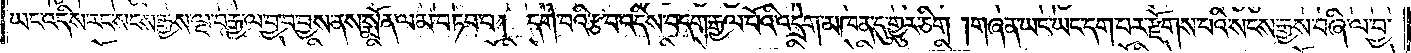ཡང་འདིས་རང་སངས་རྒྱས་ལྔ་བརྒྱ་ལ་བྱ་བ་བྱས་ནས་སྨོན་ལམ་བཏབ་པ། དགེ་བའི་རྩ་བ་འདིས་བདག་རྒྱལ་པོའི་འདྲེག་མཁན་དུ་གྱུར་ཅིག །གཞན་ཡང་ཡང་དག་པར་རྫོགས་པའི་སངས་རྒྱས་བཞི་ལ་བྱ་
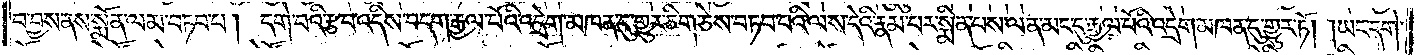བ་བྱས་ནས་སྨོན་ལམ་བཏབ་པ། དགེ་བའི་རྩ་བ་འདིས་བདག་རྒྱལ་པོའི་འདྲེག་མཁན་དུ་གྱུར་ཅིག་ཅེས་བཏབ་པའི་ལས་དེའི་རྣམ་པར་སྨིན་པས་ལན་མང་དུ་རྒྱལ་པོའི་འདྲེག་མཁན་དུ་གྱུར་ཏོ། །ཡང་དགེ་
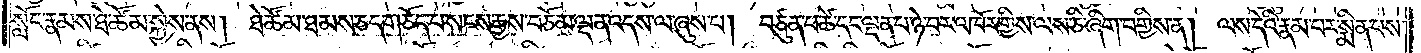སློང་རྣམས་ཐེ་ཚོམ་སྐྱེས་ནས། ཐེ་ཚོམ་ཐམས་ཅད་གཅོད་པ་སངས་རྒྱས་བཅོམ་ལྡན་འདས་ལ་ཞུས་པ། བཙུན་པ་ཚེ་དང་ལྡན་པ་ཉེ་བར་འཁོར་གྱིས་ལས་ཅི་ཞིག་བགྱིས་ན། ལས་དེའི་རྣམ་པར་སྨིན་པས་
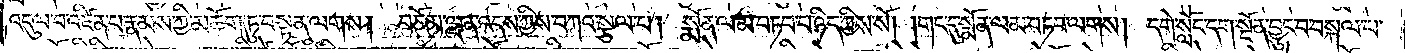འདུལ་བ་འཛིན་པ་རྣམས་ཀྱི་མཆོག་ཏུ་བསྟན་ལགས། བཅོམ་ལྡན་འདས་ཀྱིས་བཀའ་སྩལ་པ། སྨོན་ལམ་བཏབ་པ་ཉིད་ཀྱིས་སོ། །གང་དུ་སྨོན་ལམ་བཏབ་ལགས། །དགེ་སློང་དག་སྔོན་བྱུང་བ་བསྐལ་པ་
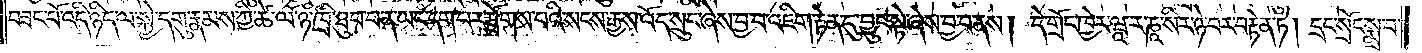བཟང་པོ་འདི་ཉིད་ལ་སྐྱེ་དགུ་རྣམས་ཀྱི་ཚེ་ལོ་ཉི་ཁྲི་ཐུབ་པ་ན་ཡང་དག་པར་རྫོགས་པའི་སངས་རྒྱས་འོད་སྲུང་ཞེས་བྱ་བ་འཇིག་རྟེན་དུ་བྱུང་སྟེ་ཞེས་བྱ་བ་ནས། དེ་གྲོང་ཁྱེར་ཝཱ་ར་ཎཱ་སིར་ཉེ་བར་བརྟེན་ཏེ། དྲང་སྲོང་སྨྲ་བ་
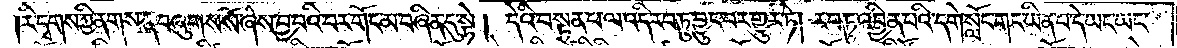རི་དྭགས་ཀྱི་ནགས་ན་བཞུགས་སོ་ཞེས་བྱ་བའི་བར་གོང་མ་བཞིན་དུ་སྟེ། དེའི་བསྟན་པ་ལ་འདི་རབ་ཏུ་བྱུང་བར་གྱུར་ཏེ། རབ་ཏུ་འབྱིན་པའི་དགེ་སློང་གང་ཡིན་པ་དེ་ཡང་ཡང་
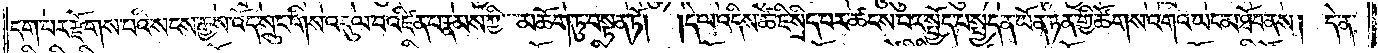དག་པར་རྫོགས་པའི་སངས་རྒྱས་འོད་སྲུང་གིས་འདུལ་བ་འཛིན་པ་རྣམས་ཀྱི་མཆོག་ཏུ་བསྟན་ཏོ། །དེ་ལ་འདིས་ཚེ་ཇི་སྲིད་པར་ཚངས་པར་སྤྱོད་པ་སྤྱད་ན་ཡོན་ཏན་གྱི་ཚོགས་འགའ་ཡང་མ་ཐོབ་ནས། དེ་ན་
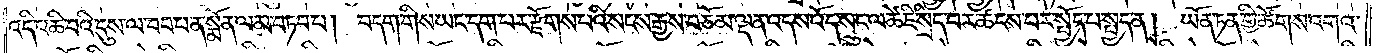འདི་འཆི་བའི་དུས་ལ་བབ་པ་ན་སྨོན་ལམ་བཏབ་པ། བདག་གིས་ཡང་དག་པར་རྫོགས་པའི་སངས་རྒྱས་བཅོམ་ལྡན་འདས་འོད་སྲུང་ལ་ཚེ་ཇི་སྲིད་བར་ཚངས་པར་སྤྱོད་པ་སྤྱད་ན། ཡོན་ཏན་གྱི་ཚོགས་འགའ་
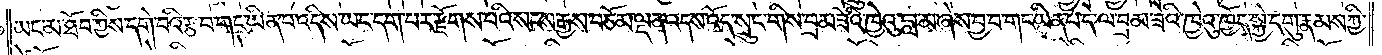ཡང་མ་ཐོབ་ཀྱིས་དགེ་བའི་རྩ་བ་གང་ཡིན་པ་འདིས་ཡང་དག་པར་རྫོགས་པའི་སངས་རྒྱས་བཅོམ་ལྡན་འདས་འོད་སྲུང་གིས་བྲམ་ཟེའི་ཁྱེའུ་བླ་མ་ཞེས་བྱ་བ་གང་ཡིན་པ་དེ་ལ་བྲམ་ཟེའི་ཁྱེའུ་ཁྱོད་སྐྱེ་དགུ་རྣམས་ཀྱི་
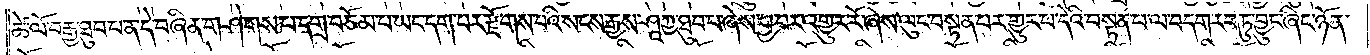ཚེ་ལོ་བརྒྱ་ཐུབ་པ་ན་དེ་བཞིན་གཤེགས་པ་དགྲ་བཅོམ་པ་ཡང་དག་པར་རྫོགས་པའི་སངས་རྒྱས་ཤཱཀྱ་ཐུབ་པ་ཞེས་བྱ་བར་འགྱུར་རོ་ཞེས་ལུང་བསྟན་པར་གྱུར་པ་དེའི་བསྟན་པ་ལ་བདག་རབ་ཏུ་རབ་ཏུ་བྱུང་ཞིང་ཉོན་
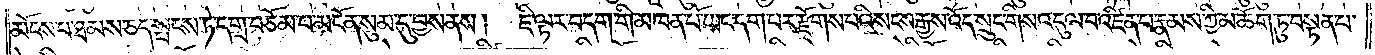མོངས་པ་ཐམས་ཅད་སྤངས་ཏེ་དགྲ་བཅོམ་པ་མངོན་སུམ་དུ་བྱས་ནས། ཇི་ལྟར་བདག་གི་མཁན་པོ་ཡང་དག་པར་རྫོགས་པའི་སངས་རྒྱས་འོད་སྲུང་གིས་འདུལ་བ་འཛིན་པ་རྣམས་ཀྱི་མཆོག་ཏུ་བསྟན་པ་
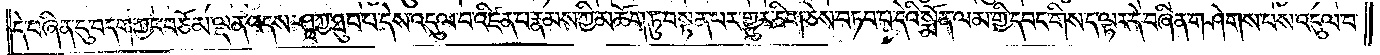དེ་བཞིན་དུ་བདག་ཀྱང་བཅོམ་ལྡན་འདས་ཤཱཀྱ་ཐུབ་པ་དེས་འདུལ་བ་འཛིན་པ་རྣམས་ཀྱི་མཆོག་ཏུ་བསྟན་པར་གྱུར་ཅིག་ཅེས་བཏབ་པ་དེའི་སྨོན་ལམ་གྱི་དབང་གིས་ད་ལྟར་དེ་བཞིན་གཤེགས་པས་འདུལ་བ་
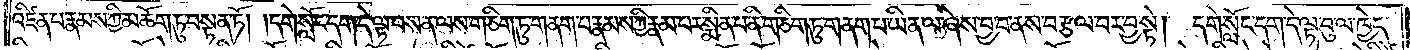འཛིན་པ་རྣམས་ཀྱི་མཆོག་ཏུ་བསྟན་ཏོ། །དགེ་སློང་དག་དེ་ལྟ་བས་ན་ལས་གཅིག་ཏུ་གནག་པ་རྣམས་ཀྱི་རྣམ་པར་སྨིན་པ་ནི་གཅིག་ཏུ་གནག་པ་ཡིན་ལ་ཞེས་བྱ་བ་ནས་བརྩལ་བར་བྱ་སྟེ། དགེ་སློང་དག་དེ་ལྟ་བུ་ལ་ཁྱེད་
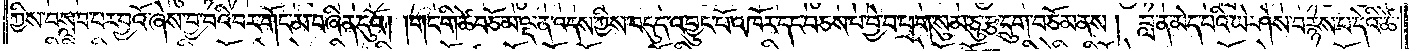ཀྱིས་བསླབ་པར་བྱའོ་ཞེས་བྱ་བའི་བར་གོང་མ་བཞིན་དུའོ། །གང་གི་ཚེ་བཅོམ་ལྡན་འདས་ཀྱིས་བདུད་འབྱུང་པོ་འཁོར་དང་བཅས་པ་བྱེ་བ་ཕྲག་སུམ་ཅུ་རྩ་དྲུག་བཅོམ་ནས། བླ་ན་མེད་པའི་ཡེ་ཤེས་བརྙེས་པ་དེའི་ཚེ་
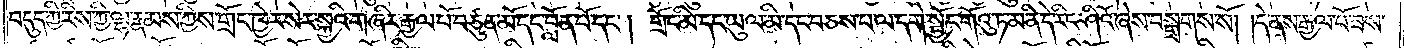བདུད་ཀྱི་རིས་ཀྱི་ལྷ་རྣམས་ཀྱིས་གྲོང་ཁྱེར་སེར་སྐྱའི་གཞིར་རྒྱལ་པོ་བཙུན་མོ་དང་བློན་པོ་དང༌། གྲོང་མི་དང་ཡུལ་མི་དང་བཅས་པ་ལ་དགེ་སྦྱོང་གོའུ་ཏ་མ་ནི་དེ་རིང་ཤིའོ་ཞེས་བསྒྲགས་སོ། །དེ་ནས་རྒྱལ་པོ་ཟས་
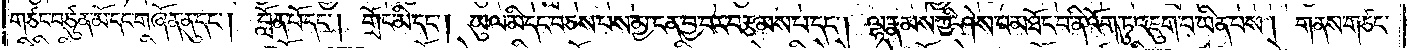གཙང་བཙུན་མོ་དང་གཞོན་ནུ་དང༌། བློན་པོ་དང༌། གྲོང་མི་དང༌། ཡུལ་མི་དང་བཅས་པས་མྱ་ངན་བྱ་བར་བརྩམས་པ་དང༌། ལྷ་རྣམས་ཀྱི་ཤེས་པ་མཐོང་བ་ནི་འོག་ཏུ་འཇུག་པ་ཡིན་པས། གནས་གཙང་
